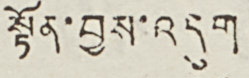སྟོན་བྱས་འདུག
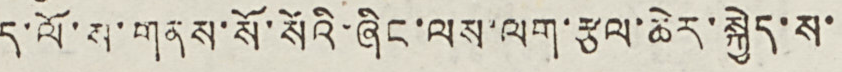ད་ལོ་ས་གནས་སོ་སོའི་ཞིང་ལས་ལག་རྩལ་ཆེར་སྐྱེད་ས་
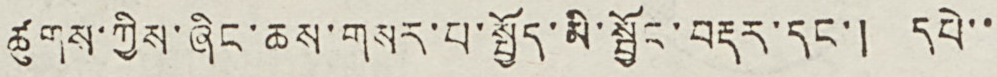ཚུགས་ཀྱིས་ཞིང་ཆས་གསར་པ་སྤྱོད་མི་སྦྱོང་བརྡར་དང་། དཔེ་་
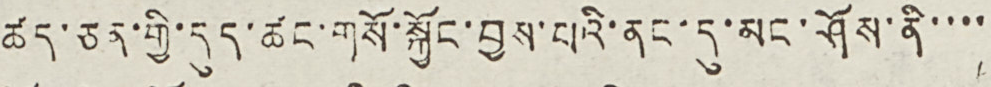ཚད་ཅན་གྱི་དུད་ཚང་གསོ་སྐྱོང་བྱས་པའི་ནང་དུ་མང་ཤོས་ནི་་་་
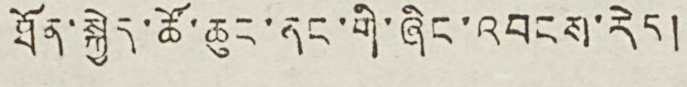ཐོན་སྐྱེད་ཚོ་ཆུང་ནང་གི་ཞིང་འབངས་རེད།
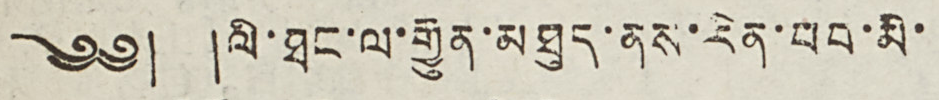༄༅། །ལི་ཐང་ལ་རྒྱུན་མཐུད་ནས་རིན་བབ་མི་
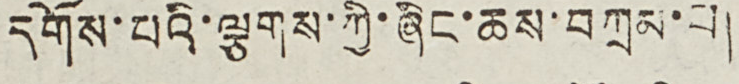དགོས་པའི་ལྕགས་ཀྱི་ཞིང་ཆས་བཀྲམ་པ།
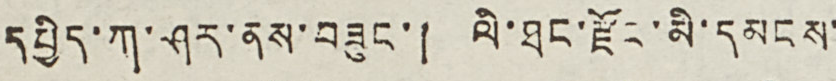དཔྱིད་ཀ་ཤར་ནས་བཟུང་། ལི་ཐང་རྫོང་མི་དམངས་
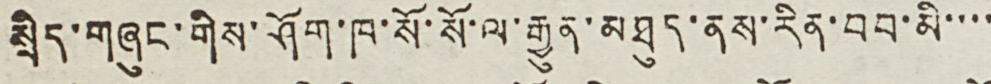སྲིད་གཞུང་གིས་ཤོག་ཁ་སོ་སོ་ལ་རྒྱུན་མཐུད་ནས་རིན་བབ་མི་་་་
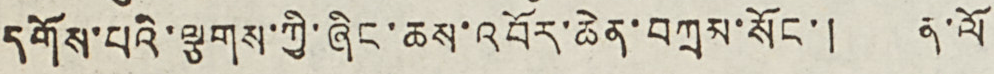དགོས་པའི་ལྕགས་ཀྱི་ཞིང་ཆས་འབོར་ཆེན་བཀྲམ་སོང་། ན་ལོ
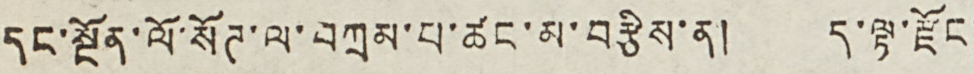དང་སྔོན་ལོ་སོཊ་ལ་བཀྲམ་པ་ཚང་མ་བརྩིས་ན། ད་ལྟ་རྫོང་
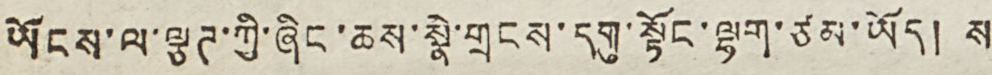ཡོངས་ལ་ལྕཊ་ཀྱི་ཞིང་ཆས་སྣེ་གྲངས་དགུ་སྟོང་ལྷག་ཙམ་ཡོད། ས
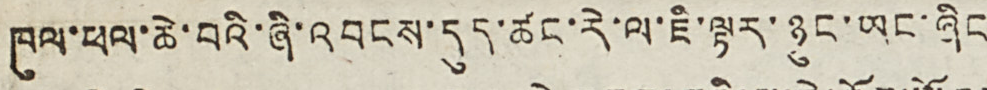ཁུལ་ཕལ་ཆེ་བའི་ཞི་འབངས་དུད་ཚང་རེ་ལ་ཇི་ལྟར་ཉུང་ཡང་ཞིང
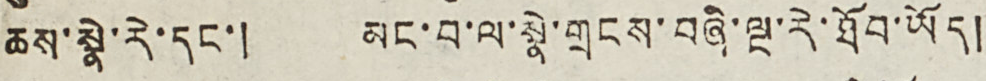ཆས་སྣེ་རེ་དང་། མང་བ་ལ་སྣེ་གྲངས་བཞི་ལྔ་རེ་ཐོབ་ཡོད།
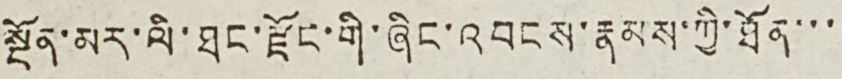སྔོན་མར་ལི་ཐང་རྫོང་གི་ཞིང་འབངས་རྣམས་ཀྱི་ཐོན་་་
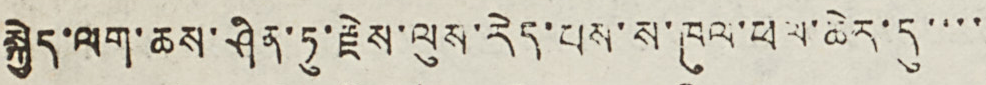སྐྱེད་ལག་ཆས་ཤིན་ཏུ་རྗེས་ལུས་རེད་པས་ས་ཁུལ་ཕལ་ཆེར་དུ་་་་
